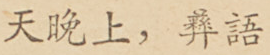天晚上，彝語
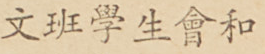文班學生會和
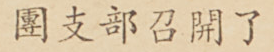團支部召開了
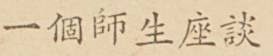一個師生座談
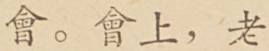會。會上，老
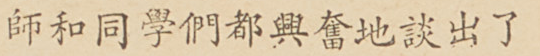師和同學們都興奮地談出了
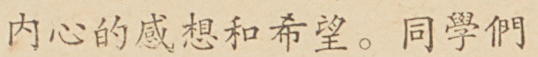內心的感想和希望。同學們
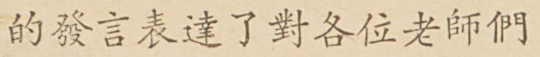的發言表達了對各位老師們
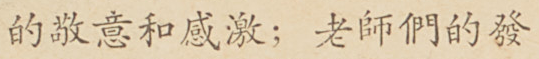的敬意和感激；老師們的發
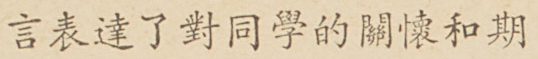言表達了對同學的關懷和期
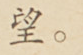望。
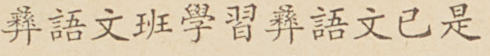彝語文班學習彝語文已是
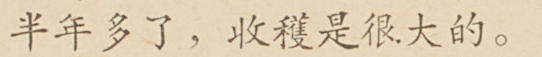半年多了，收穫是很大的。
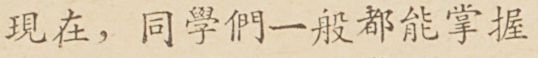現在，同學們一般都能掌握
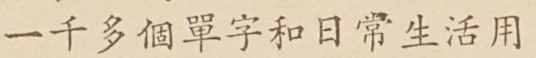一千多個單字和日常生活用
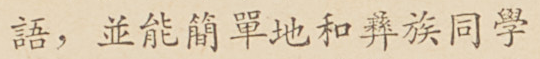語，並能簡單地和彝族同學
